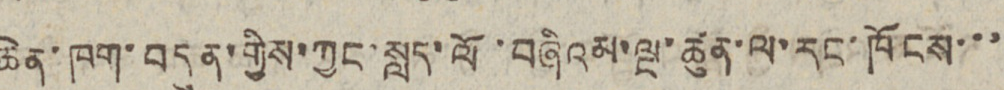ཆེན་ཁག་བདུན་གྱིས་ཀྱང་སླད་ལོ་བཞིའམ་ལྔ་ཚུན་ལ་རང་ཁོངས་་་
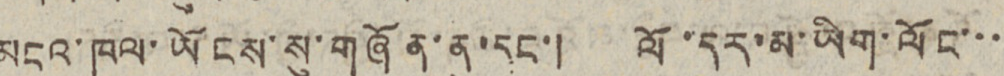མངའ་ཁུལ་ཡོངས་སུ་གཞོན་ནུ་དང་། ལོ་དར་མ་ཡིག་ལོང་་་
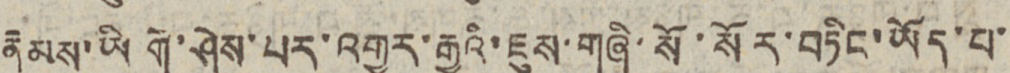རྣམས་ཡི གེ་ཤེས་པར་འགྱུར་རྒྱུའི་ཇུས་གཞི་སོ་སོར་བཏིང་ཡོད་པ་
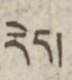རེད།
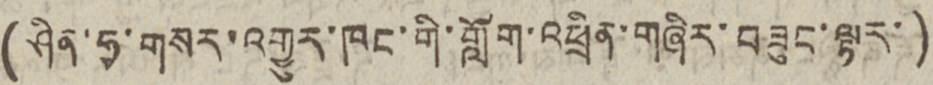(ཤིན་ཧྭ་གསར་འགྱུར་ཁང་གི་གློག་འཕྲིན་གཞིར་བཟུང་ལྟར་)
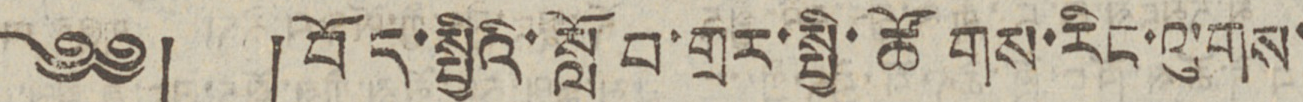༄༅། །བོད་སྤྱིའི་སློབ་གྲར་སྤྱི་ཚོགས་རིང་ལུགས་
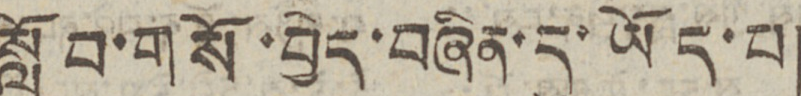སློབ་གསོ་བྱེད་བཞིན་དུ་ཡོད་པ།
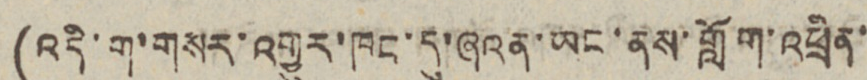(འདི་ག་གསར་འགྱུར་ཁང་དུ་ཞའན་ཡང་ནས་གློག་འཕྲིན་
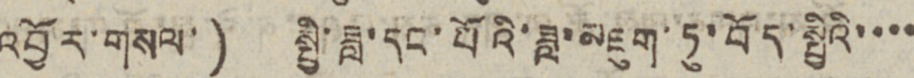འབྱོར་གསལ་) སྤྱི་ཟླ་དང་པོའི་ཟླ་མཇུག་ཏུ་བོད་སྤྱིའི་་་་
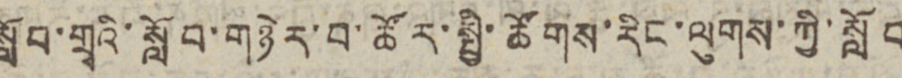སློབ་གྲྭའི་སློབ་གཉེར་བ་ཚོར་སྤྱི་ཚོགས་རིང་ལུགས་ཀྱི་སློབ
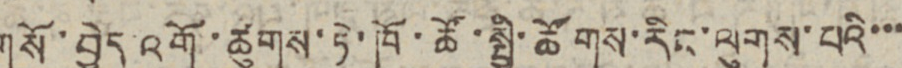གསོ་བྱེད འགོ་ཚུགས་ཏེ་ཁོ་ཚོ་སྤྱི་ཚོགས་རིང་ལུགས་པའི་་་
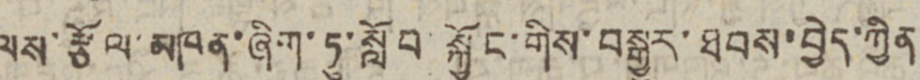ལས་རྩོལ་མཁན་ཞིག་ཏུ་སློབ་སྐྱོང་གིས་བསྒྱུར་ཐབས་བྱེད་ཀྱིན
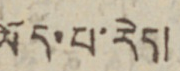ཡོད་པ་རེད།
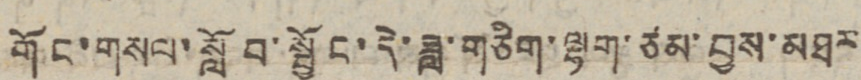གོང་གསལ་སློབ་སྦྱོང་དེ་ཟླ་གཅིག་ལྷག་ཙམ་བྱས་མཐར
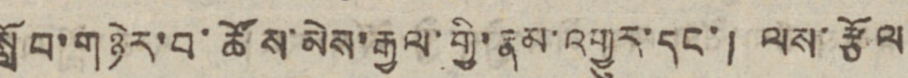སློབ་གཉེར་བ་ཚོས་མེས་རྒྱལ་གྱི་རྣམ་འགྱུར་དང་། ལས་རྩོལ
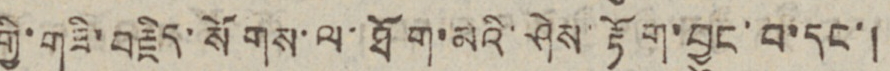གྱི་གཟི་བརྗིད་སོགས་ལ་ཐོག་མའི་ཤེས་རྟོག་བྱུང་བ་དང་།
